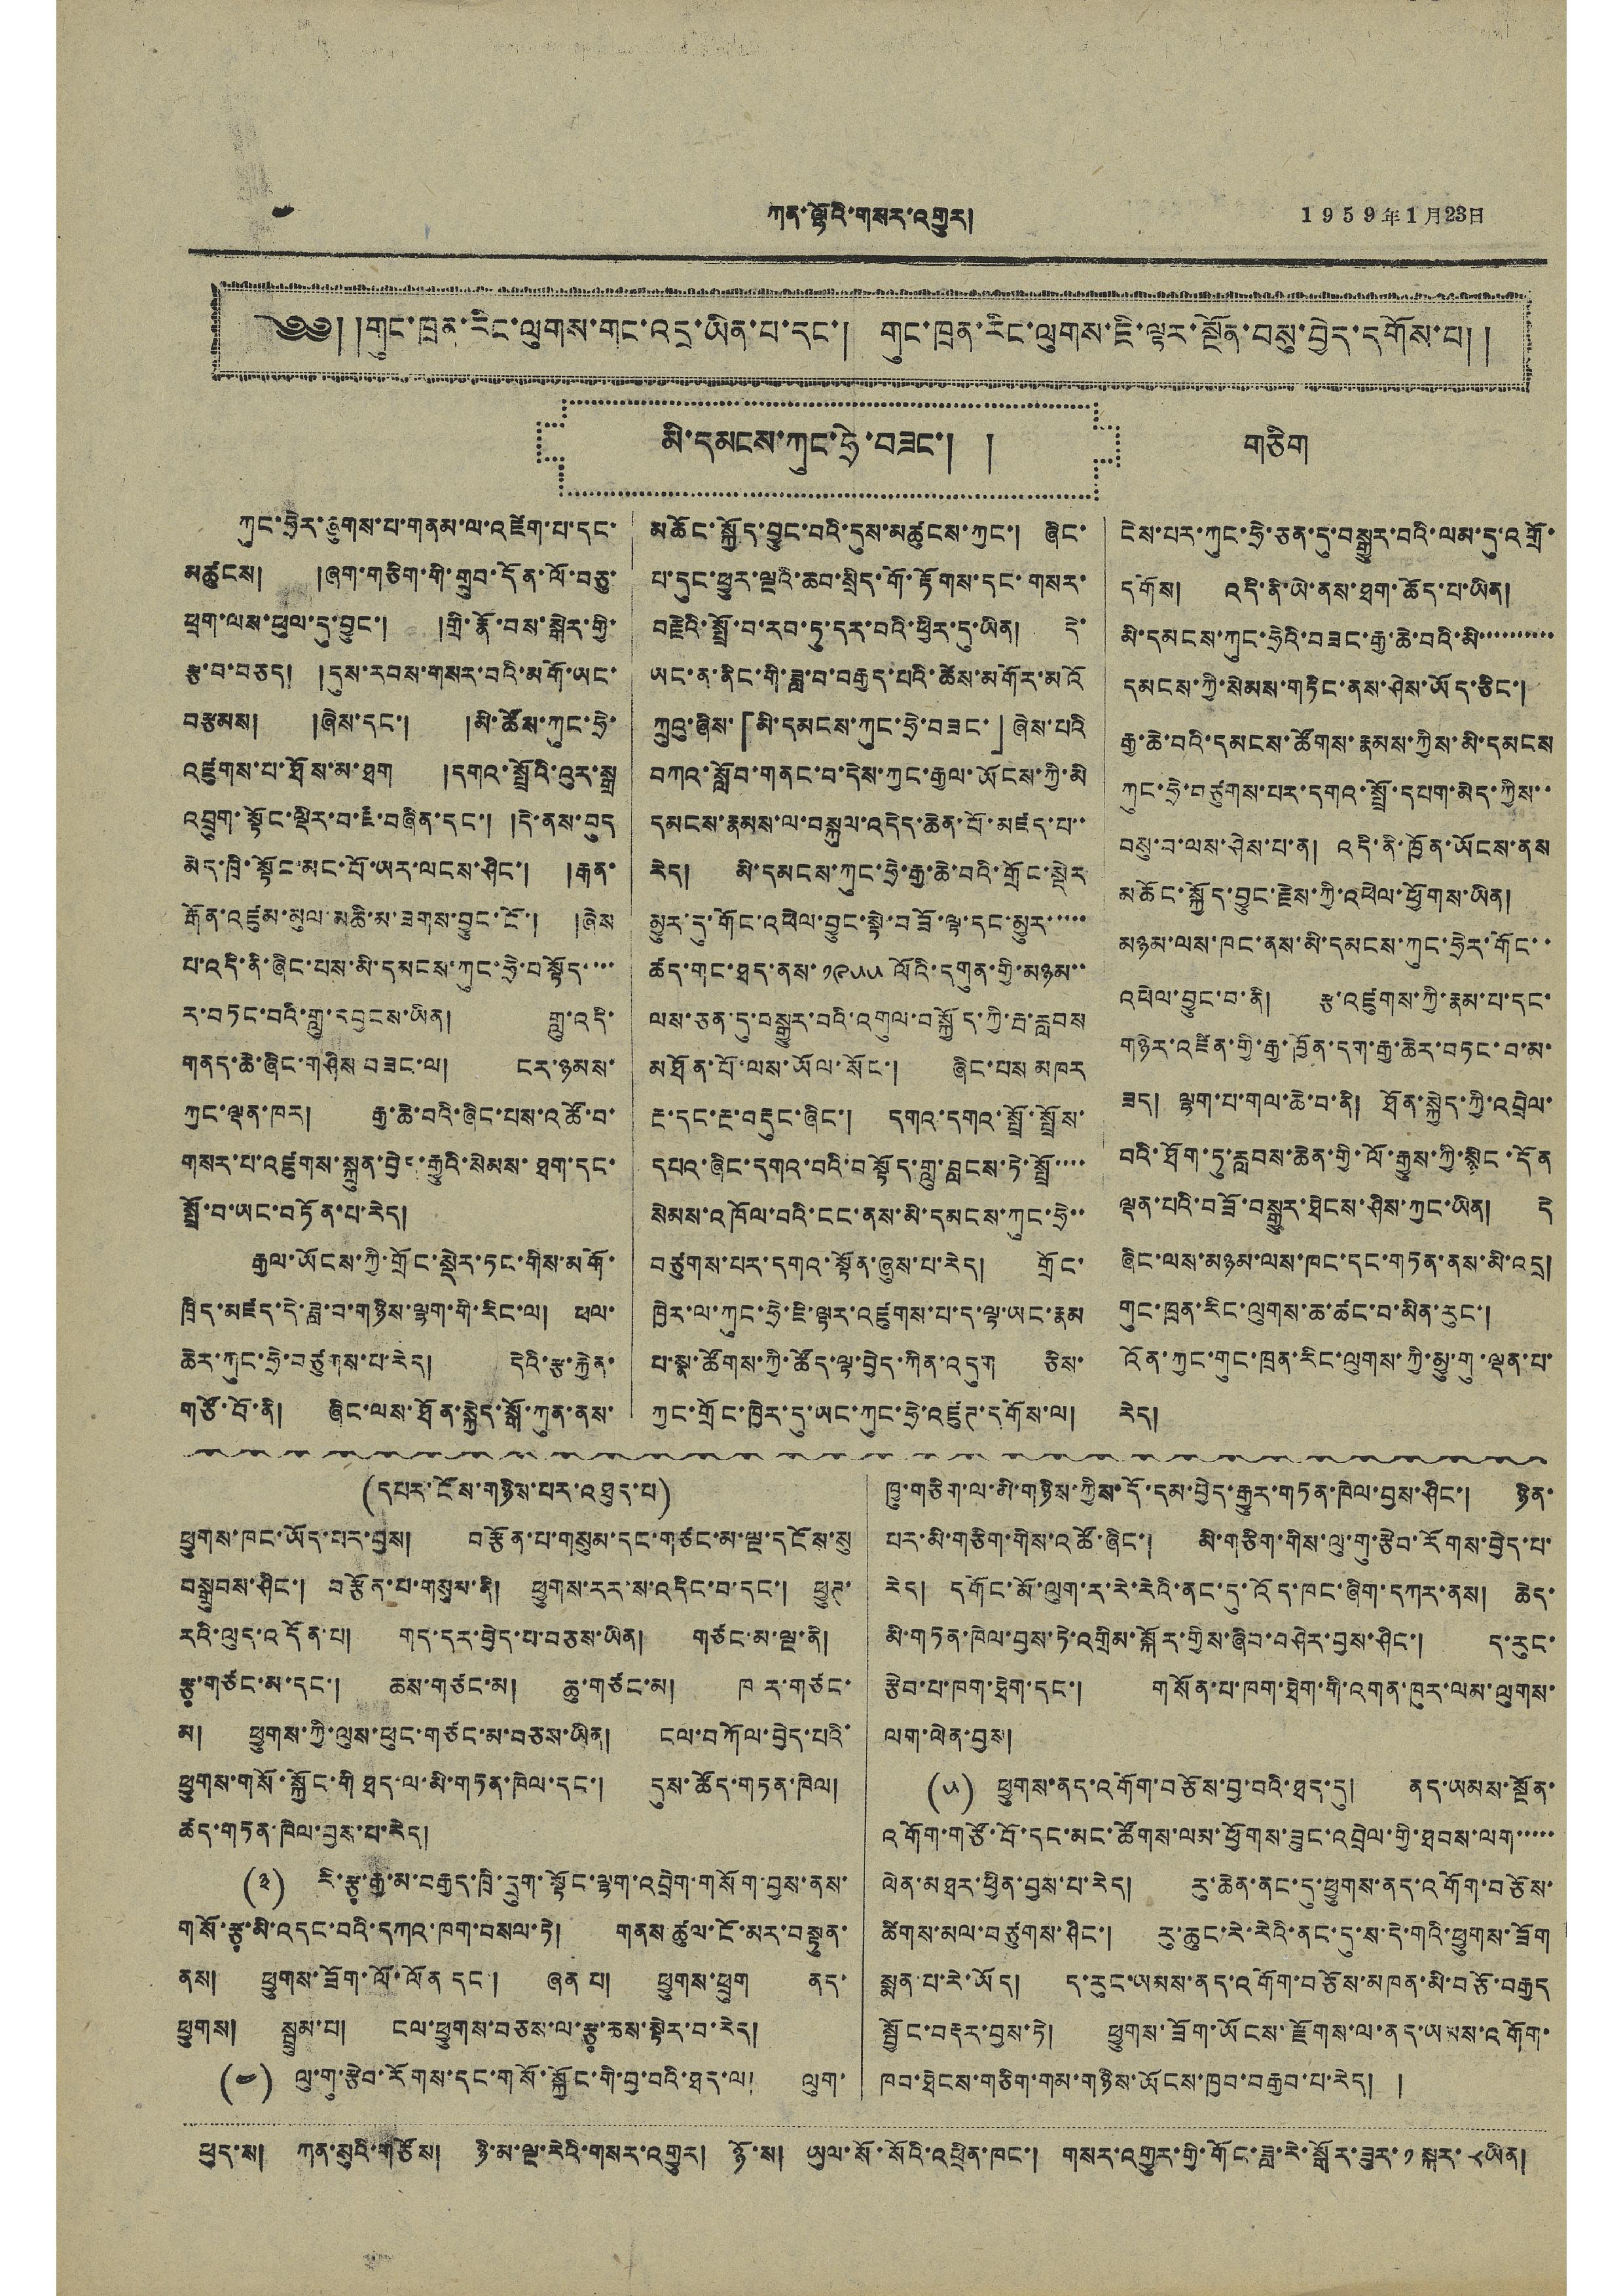༤ ཀན་ལྷོའི་གསར་འགྱུར། 1959年1月23日
༄༅། །གུང་ཁྲན་རིང་ལུགས་གང་འདྲ་ཡིན་པ་དང་། གུང་ཁྲན་རིང་ལུགས་ཇི་ལྟར་སྔོན་བསུ་བྱེད་དགོས་པ། །
མི་དམངས་ཀུང་ཧྲེ་བཟང་། ། གཅིག
ཀུང་ཧྲེར་ཞུགས་པ་གནམ་ལ་འཛེག་པ་དང་
མཚུངས། །ཞག་གཅིག་གི་གྲུབ་དོན་ལོ་བཅུ་
ཕྲག་ལས་ཕུལ་དུ་བྱུང་། །གྲི་རྣོ་བས་སྒེར་གྱི་
རྩ་བ་བཅད། །དུས་རབས་གསར་བའི་མགོ་ཡང་
བརྩམས། །ཞེས་དང་། མི་ཚོས་ཀུང་ཧྲེ་
འཛུགས་པ་ཐོས་མ་ཐག །དགའ་སྤྲོའི་འུར་སྒྲ
འབྲུག་སྟོང་ལྡིར་བ་ཇི་བཞིན་དང་། །དེ་ནས་བུད
མེད་ཁྲི་སྟོང་མང་པོ་ཡར་ལངས་ཤིང་། །རྒན་
རྒོན་འཛུམ་མུལ་མཆི་མ་ཟགས་བྱུང་ངོ་། །ཞེས
པ་འདི་ནི་ཞིང་པས་མི་དམངས་ཀུང་ཧྲེ་བསྟོད་་་་
ར་བཏང་བའི་གླུ་དབྱངས་ཡིན། གླུ་འདི་
གནད་ཆེ་ཞིང་གཤིས་བཟང་ལ། ངར་ཉམས་
ཀྱང་ལྡན་ཁར། རྒྱ་ཆེ་བའི་ཞིང་པས་འཚོ་བ་
གསར་པ་འཛུགས་སྐྲུན་བྱེད་རྒྱུའི་སེམས་ཐག་དང་
སྤྲོ་བ་ཡང་བཏོན་པ་རེད།
རྒྱལ་ཡོངས་ཀྱི་གྲོང་སྡེར་ཏང་གིས་མགོ་
ཁྲིད་མཛད་དེ་ཟླ་བ་གཉིས་ལྷག་གི་རིང་ལ། ཕལ་
ཆེར་ཀུང་ཧྲེ་བཙུགས་པ་རེད། དེའི་རྩ་རྐྱེན་
གཙོ་བོ་ནི། ཞིང་ལས་ཐོན་སྐྱེད་སྒོ་ཀུན་ནས་
མཆོང་སྐྱོད་བྱུང་བའི་དུས་མཚུངས་ཀྱང་། ཞིང་
པ་དུང་ཕྱུར་ལྔའི་ཆབ་སྲིད་གོ་རྟོགས་དང་གསར་
བརྗེའི་སྤྲོ་བ་རབ་ཏུ་དར་བའི་ཕྱིར་དུ་ཡིན། དེ་
ཡང་ན་ནིང་གི་ཟླ་བ་བརྒྱད་པའི་ཚེས་མགོར་མའོ
ཀྲུའུ་ཞིས་「མི་དམངས་ཀུང་ཧྲེ་བཟང་」ཞེས་པའི
བཀའ་སློབ་གནང་བ་དེས་ཀྱང་རྒྱལ་ཡོངས་ཀྱི་མི
དམངས་རྣམས་ལ་བསྐུལ་འདེད་ཆེན་པོ་མཛད་པ་་
རེད། མི་དམངས་ཀུང་ཧྲེ་རྒྱ་ཆེ་བའི་གྲོང་སྡེར
མྱུར་དུ་གོང་འཕེལ་བྱུང་སྟེ་བཟོ་ལྟ་དང་མྱུར་་་་་
ཚད་གང་ཐད་ནས་ ༡༩༥༥ ལོའི་དགུན་གྱི་མཉམ་་
ལས་ཅན་དུ་བསྒྱུར་བའི་འགུལ་བསྐྱོད་ཀྱི་རྦ་རླབས
མཐོན་པོ་ལས་ཡོལ་སོང་། ཞིང་པས མཁར་
རྔ་དང་རྔ་བརྡུང་ཞིང་། དགའ་དགའ་སྤྲོ་སྤྲོས་
དཔའ་ཞིང་དགའ་བའི་བསྟོད་གླུ་བླངས་ཏེ་སྤྲོ་་་་
སེམས་འཁོལ་བའི་ངང་ནས་མི་དམངས་ཀུང་ཧྲེ་་
བཙུགས་པར་དགའ་སྟོན་ཞུས་པ་རེད། གྲོང་
ཁྱེར་ལ་ཀུང་ཧྲེ་ཇི་ལྟར་འཛུགས་པ་ད་ལྟ་ཡང་རྣམ
པ་སྣ་ཚོགས་ཀྱི་ཚོད་ལྟ་བྱེད་ཀིན་འདུག ཅིས་
ཀྱང་གྲོང་ཁྱེར་དུ་ཡང་ཀུང་ཧྲེ་འཛུཌ་དགོས་ལ།
ངེས་པར་ཀུང་ཧྲེ་ཅན་དུ་བསྒྱུར་བའི་ལམ་དུ་འགྲོ་
དགོས། འདི་ནི་ཡེ་ནས་ཐག་ཆོད་པ་ཡིན།
མི་དམངས་ཀུང་ཧྲེའི་བཟང་རྒྱ་ཆེ་བའི་མི་་་་་་་་་་
དམངས་ཀྱི་སེམས་གཏིང་ནས་ཤེས་ཡོད་ཅིང་།
རྒྱ་ཆེ་བའི་དམངས་ཚོགས་རྣམས་ཀྱིས་མི་དམངས
ཀུང་ཧྲེ་བཙུགས་པར་དགའ་སྤྲོ་དཔག་མེད་ཀྱིས་་
བསུ་བ་ལས་ཤེས་པ་ན། འདི་ནི་ཁྱོན་ཡོངས་ནས
མཆོང་སྐྱོད་བྱུང་རྗེས་ཀྱི་འཕེལ་ཕྱོགས་ཡིན།
མཉམ་ལས་ཁང་ནས་མི་དམངས་ཀུང་ཧྲེར་གོང་་
འཕེལ་བྱུང་བ་ནི། རྩ་འཛུགས་ཀྱི་རྣམ་པ་དང་
གཉེར་འཛིན་གྱི་རྒྱ་ཁྱོན་དག་རྒྱ་ཆེར་བཏང་བ་མ་
ཟད། ལྷག་པ་གལ་ཆེ་བ་ནི། ཐོན་སྐྱེད་ཀྱི་འབྲེལ་
བའི་ཐོག་ཏུ་རླབས་ཆེན་གྱི་ལོ་རྒྱུས་ཀྱི་སྙིང་དོན
ལྡན་པའི་བཟོ་བསྒྱུར་ཐེངས་ཤིས་ཀྱང་ཡིན། དེ
ཞིང་ལས་མཉམ་ལས་ཁང་དང་གཏན་ནས་མི་འདྲ།
གུང་ཁྲན་རིང་ལུགས་ཆ་ཚང་བ་མིན་རུང་།
འོན་ཀྱང་གུང་ཁྲན་རིང་ལུགས་ཀྱི་མྱུ་གུ་ལྡན་པ་
རེད།
(དཔར་ངོས་གཉིས་པར་འཐུད་པ)
ཕྱུགས་ཁང་ཡོད་པར་བྱས། བརྩོན་པ་གསུམ་དང་གཙང་མ་ལྔ་དངོས་སུ
བསྒྲུབས་ཤིང་། བརྩོན་པ་གསུམ་ནི། ཕྱུགས་རར་ས་འདིང་བ་དང་། ཕྱུཊ་
རའི་ལུད་འདོན་པ། གད་དར་བྱེད་པ་བཅས་ཡིན། གཙང་མ་ལྔ་ནི།
རྩྭ་གཙང་མ་དང་། ཆས་གཙང་མ། ཆུ་གཙང་མ། ཁ་ར་གཙང་
མ། ཕྱུགས་ཀྱི་ལུས་ཕུང་གཙང་མ་བཅས་ཡིན། ངལ་བཀོལ་བྱེད་པའི་
ཕྱུགས་གསོ་སྐྱོང་གི ཐད་ལ་མི་གཏན་ཁེལ་དང་། དུས་ཚོད་གཏན་ཁེལ།
ཚད་གཏན་ཁེལ་བྱས་པ་རེད།
(༣) རི་རྩྭ་རྒྱ་མ་བརྒྱད་ཁྲི་དྲུག་སྟོང་ལྷག་འབྲེག་གསོག་བྱས་ནས་
གསོ་རྩྭ་མི་འདང་བའི་དཀའ་ཁག་བསལ་ཏེ། གནས་ཚུལ་ངོ་མར་བསྟུན་
ནས། ཕྱུགས་ཟོག་ལོ་ལོན དང་། ཞན པ། ཕྱུགས་ཕྲུག ནད་
ཕྱུགས། སྦྲུམ་པ། ངལ་ཕྱུགས་བཅས་ལ་རྩྭ་ཆས་སྟེར་བ་རེད།
(༤) ལུ་གུ་རྩེབ་རོགས་དང་གསོ་སྐྱོང་གི་བྱ་བའི་ཐད་ལ། ལུག་
ཁྱུ་གཅིག་ལ་མི་གཉིས་ཀྱིས་དོ་དམ་བྱེད་རྒྱུར་གཏན་ཁེལ་བྱས་ཤིང་། ཉིན་
པར་མི་གཅིག་གིས་འཚོ་ཞིང་། མི་གཅིག་གིས་ལུ་གུ་རྩེབ་རོགས་བྱེད་པ་
རེད། དགོང་མོ་ལུག་ར་རེ་རེའི་ནང་དུ་འོད་ཁང་ཞིག་དཀར་ནས། ཆེད་
མི་གཏན་ཁེལ་བྱས་ཏེ་འགྲིམ་སྐོར་གྱིས་ཞིབ་བཤེར་བྱས་ཤིང་། ད་རུང་
རྩེབ་པ་ཁག་ཐེག་དང་། གསོན་པ་ཁག་ཐེག་གི་འགན་ཁུར་ལམ་ལུགས་
ལག་ལེན་བྱས།
(༥) ཕྱུགས་ནད་འགོག་བཅོས་བྱ་བའི་ཐད་དུ། ནད་ཡམས་སྔོན་
འགོག་གཙོ་བོ་དང་མང་ཚོགས་ལམ་ཕྱོགས་ཟུང་འབྲེལ་གྱི་ཐབས་ལག་་་་་
ལེན་མཐར་ཕྱིན་བྱས་པ་རེད། རུ་ཆེན་ནང་དུ་ཕྱུགས་ནད་འགོག་བཅོས་
ཚིགས་མལ་བཙུགས་ཤིང་། རུ་ཆུང་རེ་རེའི་ནང་དུ་ས་དེ་གའི་ཕྱུགས་ཟོག
སྨན་པ་རེ་ཡོད། ད་རུང་ཡམས་ནད་འགོག་བཅོས་མཁན་མི་བཅོ་བརྒྱད
སྦྱོང་བརྡར་བྱས་ཏེ། ཕྱུགས་ཟོག་ཡོངས་རྫོགས་ལ་ནད་ཡམས་འགོག་
ཁབ་ཐེངས་གཅིག་གམ་གཉིས་ཡོངས་ཁྱབ་བརྒྱབ་པ་རེད། །
ཕུད་ས། ཀན་སུའི་གཙོས། ཉི་མ་ལྔ་རེའི་གསར་འགྱུར། ཉོ་ས། ཡུལ་སོ་སོའི་འཕྲིན་ཁང་། གསར་འགྱུར་གྱི་གོང་ཟླ་རེ་སྒོར་ཟུར་ ༡ སྐར་ ༨ ཡིན།
